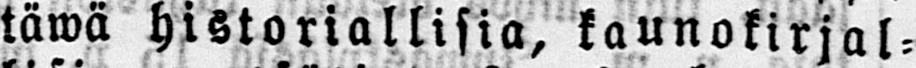täwä historiallisia, kaunokirjal-
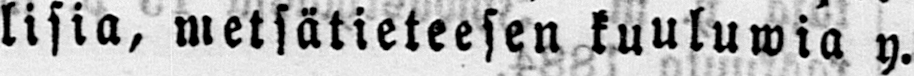lisia, metsätieteesen kuuluwia y.
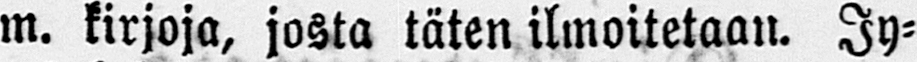m. kirjoja, josta täten ilmoitetaan. Jy-
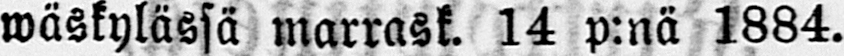wäskylässä marrask. 14 p:nä 1884.
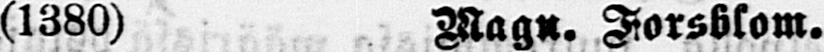(1380) Magn. Forsblom.
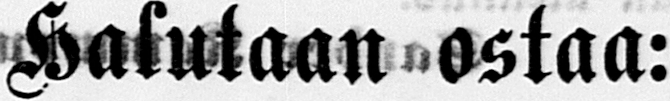Halutaan ostaa:
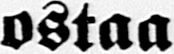ostaa
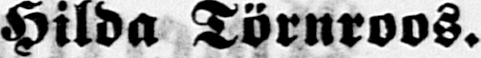Hilda Törnroos.
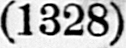(1328)
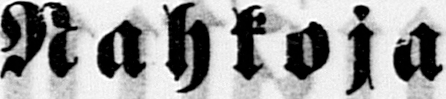Nahkoja
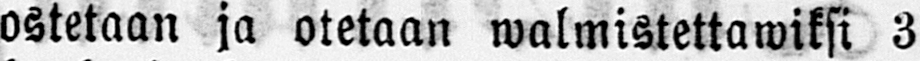ostetaan ja otetaan walmistettawiksi 3
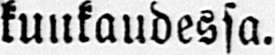kuukaudessa.
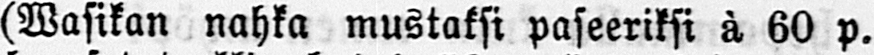(Wasikan nahka mustaksi paseeriksi ä 60 p.
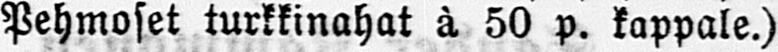Pehmoset turkkinahat ä 50 p. kappale.)
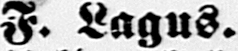F. Lagus.
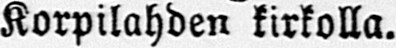Korpilahden kirkolla.
